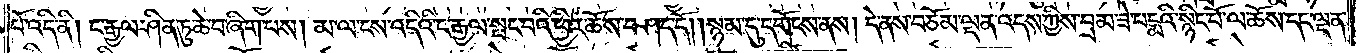པོ་འདི་ནི། ང་རྒྱལ་ཤིན་ཏུ་ཆེ་བ་ཞིག་པས། མ་ལ་ངས་འདིའི་ང་རྒྱལ་སྤང་བའི་ཕྱིར་ཆོས་བཤད་དོ། །སྙམ་དུ་དགོངས་ནས། དེ་ནས་བཅོམ་ལྡན་འདས་ཀྱིས་བྲམ་ཟེ་པདྨའི་སྙིང་པོ་ལ་ཆོས་དང་ལྡན་
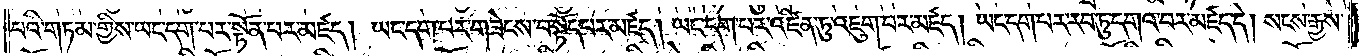པའི་གཏམ་གྱིས་ཡང་དག་པར་སྟོན་པར་མཛད། ཡང་དག་པར་གཟེངས་བསྟོད་པར་མཛད། ཡང་དག་པར་འཛིན་ཏུ་འཇུག་པར་མཛད། ཡང་དག་པར་རབ་ཏུ་དགའ་བར་མཛད་དེ། སངས་རྒྱས་
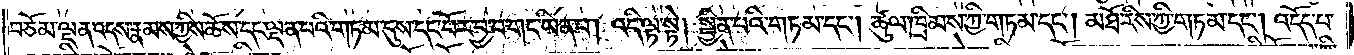བཅོམ་ལྡན་འདས་རྣམས་ཀྱིས་ཆོས་དང་ལྡན་པའི་གཏམ་དུས་དང་པོར་བྱ་བ་གང་ཡིན་པ། འདི་ལྟ་སྟེ། སྦྱིན་པའི་གཏམ་དང༌། ཚུལ་ཁྲིམས་ཀྱི་གཏམ་དང༌། མཐོ་རིས་ཀྱི་གཏམ་དང༌། འདོད་པ་
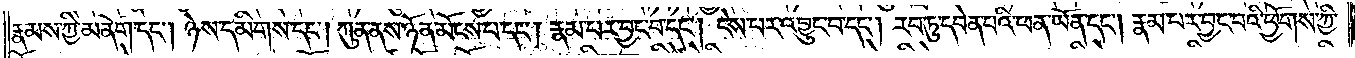རྣམས་ཀྱི་མནོག་དང༌། ཉེས་དམིགས་དང༌། ཀུན་ནས་ཉོན་མོངས་པ་དང༌། རྣམ་པར་བྱང་བ་དང༌། ངེས་པར་འབྱུང་བ་དང༌། རབ་ཏུ་དབེན་པའི་ཕན་ཡོན་དང༌། རྣམ་པར་བྱང་བའི་ཕྱོགས་ཀྱི་
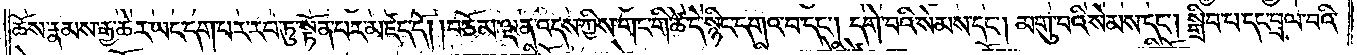ཆོས་རྣམས་རྒྱ་ཆེར་ཡང་དག་པར་རབ་ཏུ་སྟོན་པར་མཛད་དོ། །བཅོམ་ལྡན་འདས་ཀྱིས་གང་གི་ཚེ་དེ་སྙིང་དགའ་བ་དང༌། དགེ་བའི་སེམས་དང༌། མགུ་བའི་སེམས་དང༌། སྒྲིབ་པ་དང་བྲལ་བའི་
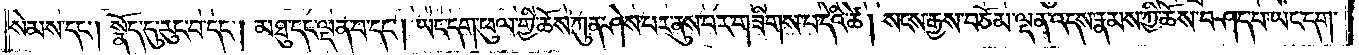སེམས་དང༌། སྣོད་དུ་རུང་བ་དང༌། མཐུ་དང་ལྡན་པ་དང༌། ཡང་དག་ཕུལ་གྱི་ཆོས་ཀུན་ཤེས་པར་ནུས་པར་གཟིགས་པ་དེའི་ཚེ། སངས་རྒྱས་བཅོམ་ལྡན་འདས་རྣམས་ཀྱི་ཆོས་བཤད་པ་ཡང་དག་
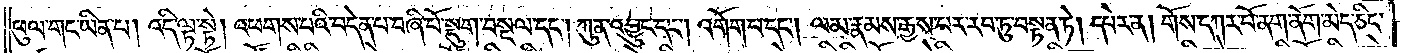ཕུལ་གང་ཡིན་པ། འདི་ལྟ་སྟེ། འཕགས་པའི་བདེན་པ་བཞི་པོ་སྡུག་བསྔལ་དང༌། ཀུན་འབྱུང་དང༌། འགོག་པ་དང༌། ལམ་རྣམས་རྒྱས་པར་རབ་ཏུ་བསྟན་ཏེ། དཔེར་ན། གོས་དཀར་པོ་ནག་ནོག་མེད་ཅིང་
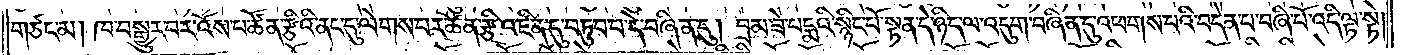གཙང་མ། ཁ་བསྒྱུར་བར་འོས་པ་ཚོན་རྩིའི་ནང་དུ་ལེགས་པར་ཚོན་རྩི་འཛིན་དུ་བཏུབ་པ་དེ་བཞིན་དུ། བྲམ་ཟེ་པདྨའི་སྙིང་པོ་བསྟན་དེ་ཉིད་ལ་འདུག་བཞིན་དུ་འཕགས་པའི་བདེན་པ་བཞི་པོ་འདི་ལྟ་སྟེ།
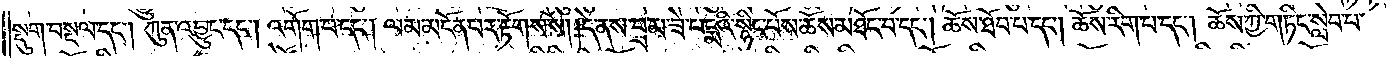སྡུག་བསྔལ་དང༌། ཀུན་འབྱུང་དང༌། འགོག་པ་དང༌། ལམ་མངོན་པར་རྟོགས་སོ། །དེ་ནས་བྲམ་ཟེ་པདྨའི་སྙིང་པོས་ཆོས་མཐོང་བ་དང༌། ཆོས་ཐོབ་པ་དང༌། ཆོས་རིག་པ་དང༌། ཆོས་ཀྱི་གཏིང་སླེབ་པ་
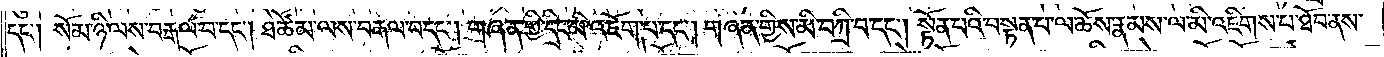དང༌། སོམ་ཉི་ལས་བརྒལ་བ་དང༌། ཐེ་ཚོམ་ལས་བརྒལ་བ་དང༌། གཞན་གྱི་དྲིང་མི་འཇོག་པ་དང༌། གཞན་གྱིས་མི་བཀྲི་བ་དང༌། སྟོན་པའི་བསྟན་པ་ལ་ཆོས་རྣམས་ལ་མི་འཇིགས་པ་ཐོབ་ནས་
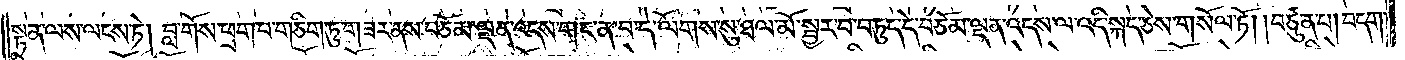སྟན་ལས་ལངས་ཏེ། བླ་གོས་ཕྲག་པ་གཅིག་ཏུ་གཟར་ནས་བཅོམ་ལྡན་འདས་གང་ན་བ་དེ་ལོགས་སུ་ཐལ་མོ་སྦྱར་བ་བཏུད་དེ་བཅོམ་ལྡན་འདས་ལ་འདི་སྐད་ཅེས་གསོལ་ཏོ། །བཙུན་པ། བདག་
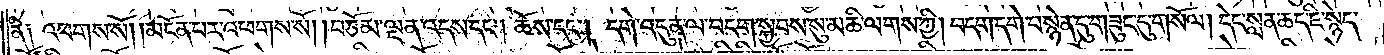ནི༑ འཕགས་སོ། །མངོན་པར་འཕགས་སོ། །བཅོམ་ལྡན་འདས་དང༌། ཆོས་དང༌། དགེ་འདུན་ལ་བདག་སྐྱབས་སུ་མཆི་ལགས་ཀྱི། བདག་དགེ་བསྙེན་དུ་གཟུང་དུ་གསོལ། དེང་སླན་ཆད་ཇི་སྙེད་
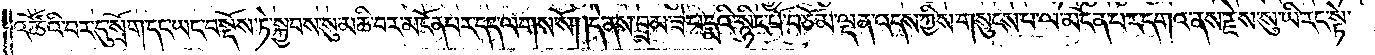འཚོའི་བར་དུ་སྲོག་དང་ཡང་བསྔོས་ཏེ་སྐྱབས་སུ་མཆི་བར་མངོན་པར་དད་ལགས་སོ། །དེ་ནས་བྲམ་ཟེ་པདྨའི་སྙིང་པོ་བཅོམ་ལྡན་འདས་ཀྱིས་གསུངས་པ་ལ་མངོན་པར་དགའ་ནས་རྗེས་སུ་ཡི་རང་སྟེ་
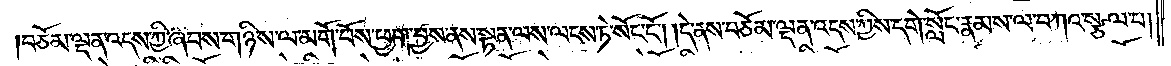བཅོམ་ལྡན་འདས་ཀྱི་ཞབས་གཉིས་ལ་མགོ་བོས་ཕྱག་བྱས་ནས་སྟན་ལས་ལངས་ཏེ་སོང་ངོ༌། །དེ་ནས་བཅོམ་ལྡན་འདས་ཀྱིས་དགེ་སློང་རྣམས་ལ་བཀའ་སྩལ་པ།
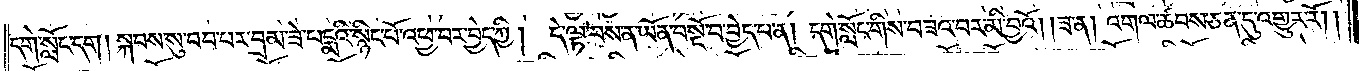དགེ་སློང་དག །སྐབས་སུ་བབ་པར་བྲམ་ཟེ་པདྨའི་སྙིང་པོ་འཕྱ་བར་བྱེད་ཀྱི། དེ་ལྟ་བས་ན་ཡོན་བསྔོ་བ་བྱེད་པ་ན། དགེ་སློང་གིས་བཟའ་བར་མི་བྱའོ། །ཟ་ན། འགལ་ཚབས་ཅན་དུ་འགྱུར་རོ། །
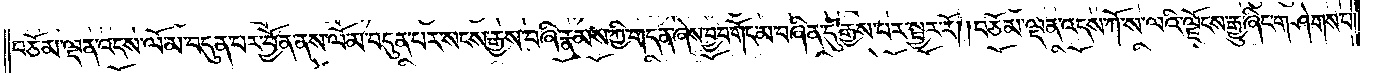བཅོམ་ལྡན་འདས་ལོ་མ་བདུན་པར་བྱོན་ནས་ལོ་མ་བདུན་པར་སངས་རྒྱས་བཞི་རྣམས་ཀྱི་གདན་ཞེས་བྱ་བ་གོང་མ་བཞིན་དུ་རྒྱས་པར་སྦྱར་རོ། །བཅོམ་ལྡན་འདས་ཀོ་ས་ལའི་ལྗོངས་རྒྱུ་ཞིང་གཤེགས་པ་
